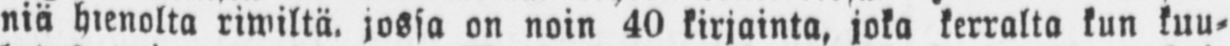niä hienolta riwiltä. jossa on noin 40 kirjainta, joka kerralta kun kuu-
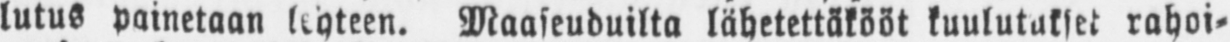lutus painetaan lehteen. Maaseuduilta lähetettäkööt kuulutukset rahoi-
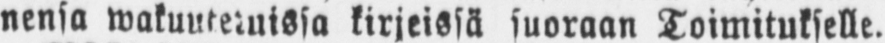nensa wakuutetuissa kirjeissä suoraan Toimitukselle.
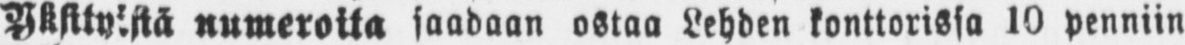Yksityistä numeroita saadaan ostaa Lehden konttorissa 10 penniin
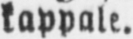kappale.
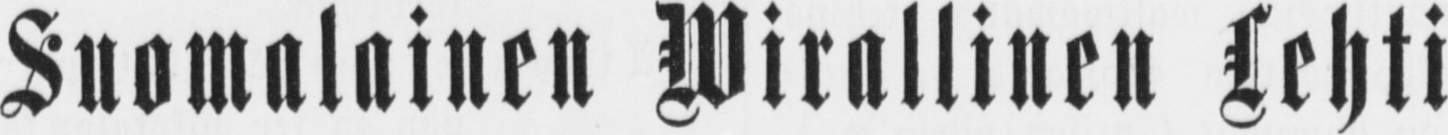Suomalainen Wirallinen Lehti
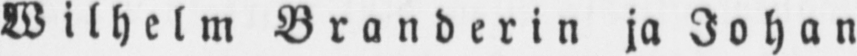Wilhelm Branderin ja Johan
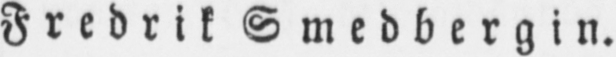Fredrik Smedbergin.
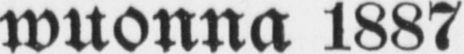wuonna 1887
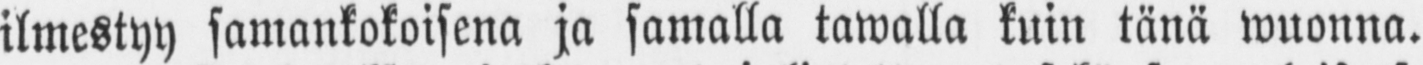ilmestyy samankokoisena ja samalla tawalla kuin tänä wuonna.
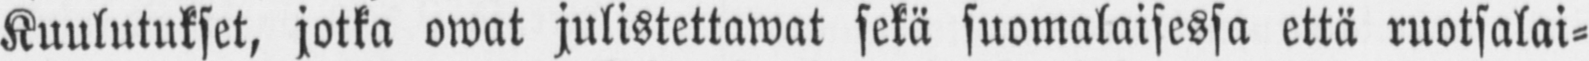Kuulutukset, jotka owat julistettawat sekä suomalaisessa että ruotsalai-
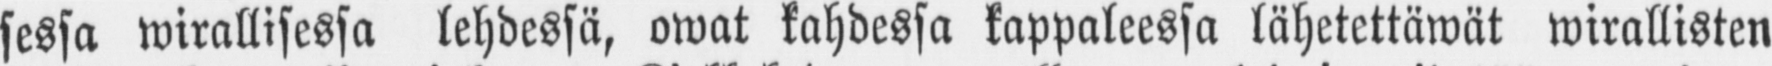sessa wirallisessa lehdessä, owat kahdessa kappaleessa lähetettäwät wirallisten
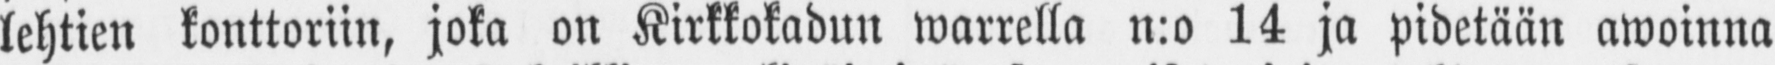lehtien konttoriin, joka on Kirkkokadun warrella n:o 14 ja pidetään awoinna
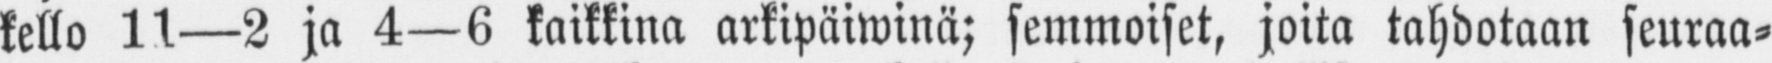kello 11—2 ja 4 —6 kaikkina arkipäiwinä; semmoiset, joita tahdotaan seuraa-
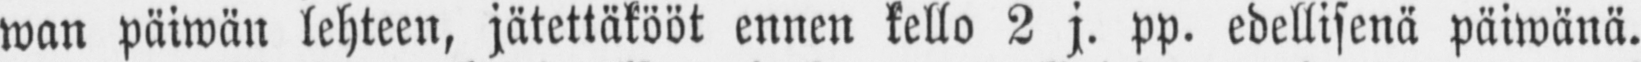wan päiwän lehteen, jätettäkööt ennen kello 2 j. pp. edellisenä päiwänä.
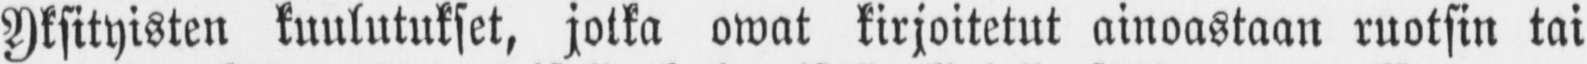Yksityisten kuulutukset, jotka owat kirjoitetut ainoastaan ruotsin tai
